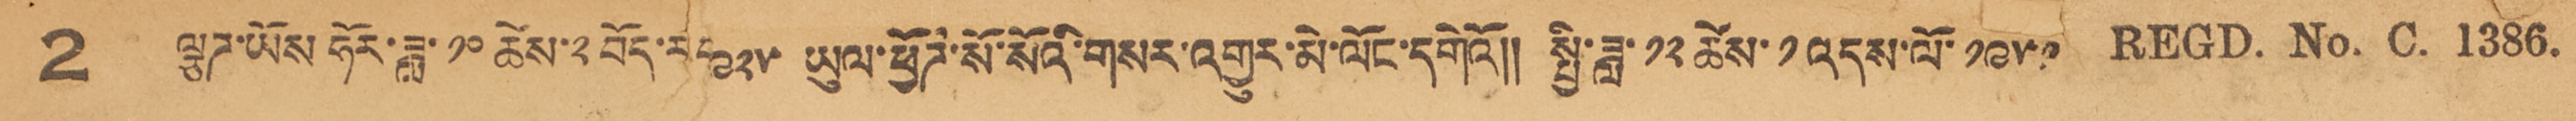2 ལྕཌ་ཡོས ཧོར་ཟླ་ ༡༠ ཚེས་༢བོད་རབ ༩༢༥ ཡུལ་ཕྱོཌ་སོ་སོའི་གསར་འགྱུར་མེ་ལོང་དགེའོ།། སྤྱི་ཟླ་ ༡༢ ཚེས་ ༡འདས་ལོ་ ༡༩༥༠ REGD. NO. C. 1386.
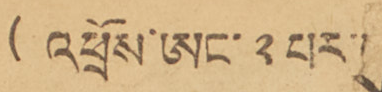(འཕྲོས་ཨང་ ༢པར།
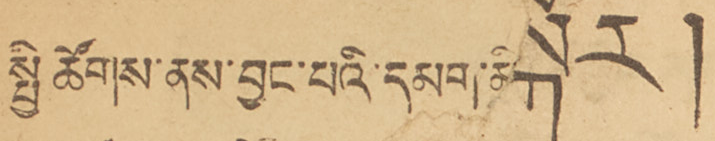སྤྱི་ཚོགས་ནས་བྱང་པའི་དམག་མི་སྐོར།
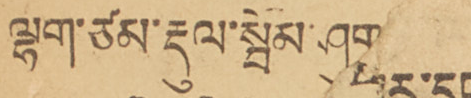ལྷག་ཙམ་རྡུལ་སྦོམ་ཤུག
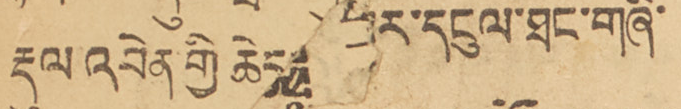རྡུལ་འབེན་གྱི ཆེད་ ཐར་དངུལ་ཐང་གཞི་
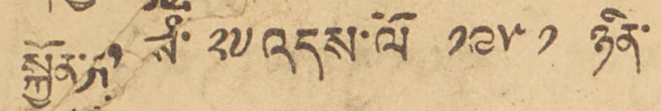སྐྱོན་ ས་ ༢༧ འདས་ལོ ༡༩༥༡ ཉིན་
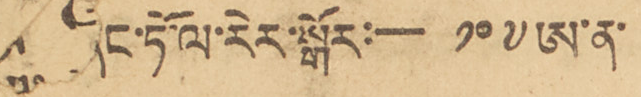ནང་ཏོ་ལ་རེར་སྒོར་:— ༡༠༧ ཨ་ན་
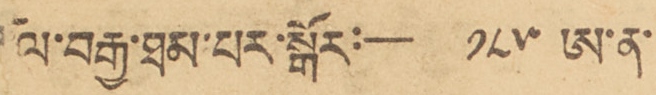ལ་བརྒྱ་ཐམ་པར་སྒོར་:— ༡༨༥ ཨ་ན་
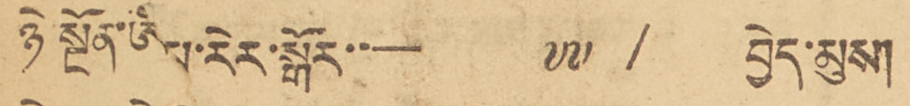ཉེ སྔོན་ཨཔ་རེར་སྒོར་:— ༧༧/ བྱེད་མུས།
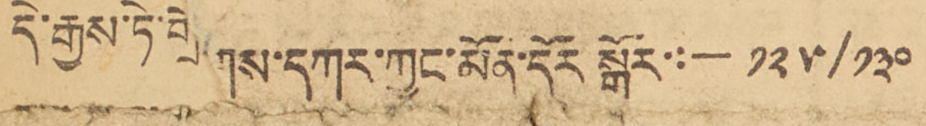དེ་རྒྱས་ཏེ་གྲེགས་དཀར་ཀྱང་མོན་དོར སྒོར་:— ༡༢༥/༡༣༠
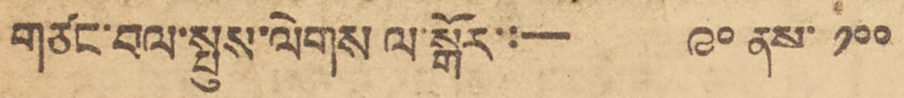གཙང་བལ་སྤུས་ལེགས ལ་སྒོར་:— ༩༠ ནས་ ༡༠༠
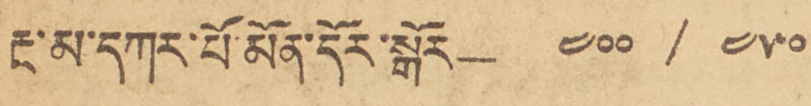རྔ་མ་དཀར་པོ་མོན་དོར་སྒོར— ༤༠༠ / ༤༥༠
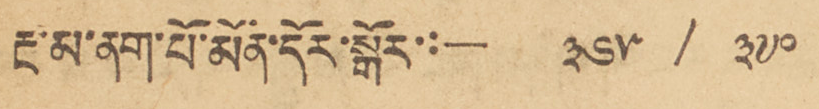རྔ་མ་ནག་པོ་མོན་དོར་སྒོར་:— ༣༦༥ / ༣༧༠
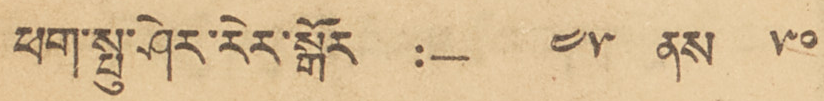ཕག་སྤུ་ཤེར་རེར་སྒོར :— ༤༥ ནས ༥༠
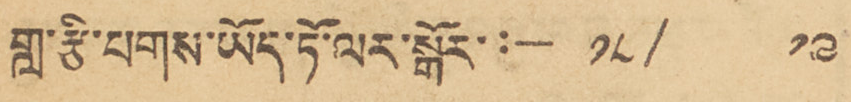གླ་རྩི་པགས་ཡོད་ཏོ་ལར་སྒོར་ :— ༡༨/ ༡༩
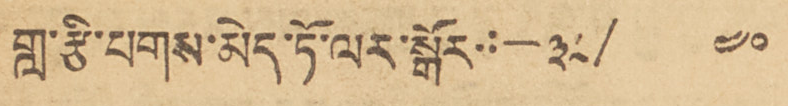གླ་རྩི་པགས་མེད་ཏོ་ལར་སྒོར་ ༣༨/༤༠
